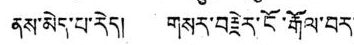ནས་མེད་པ་རེད། གསར་བརྗེར་ངོ་རྒོལ་བར་
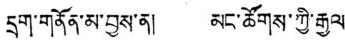དྲག་གནོན་མ་བྱས་ན། མང་ཚོགས་ཀྱི་རྒྱལ་
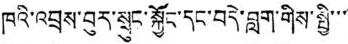ཁའི་འབྲས་བུར་སྲུང་སྐྱོང་དང་བདེ་བླག་གིས་སྤྱི་་་
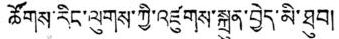ཚོགས་རིངས་ལུགས་ཀྱི་འཛུགས་སྐྲུན་བྱེད་མི་ཐུབ།
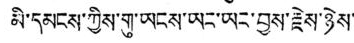མི་དམངས་ཀྱིས་གུ་ཡངས་ཡང་ཡང་བྱས་རྗེས་ཉེས་
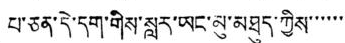པ་ཅན་དེ་དག་གིས་སླར་ཡང་མུ་མཐུད་ཀྱིས་་་་་་་
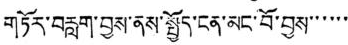གཏོར་བརླག་བྱས་ནས་སྤྱོད་ངན་མང་བོ་བྱས་་་་་་
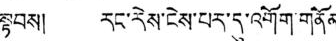སྟབས། རང་རེས་ངེས་པར་དུ་འགོག་གནོན་
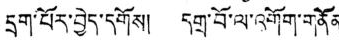དྲག་པོར་བྱེད་དགོས། དགྲ་བོ་ལ་འགོག་གནོན་
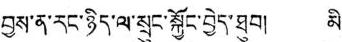བྱས་ན་རང་ཉིད་ལ་སྲུང་སྐྱོང་བྱེད་ཐུབ། མི་
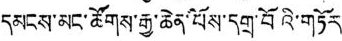དམངས་མང་ཚོགས་རྒྱ་ཆེན་པོས་དགྲ་བོའི་གཏོར་
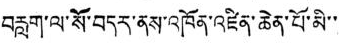བརླག་ལ་སོ་བདར་ནས་འཁོན་འཛིན་ཆེན་པོ་མི་་་
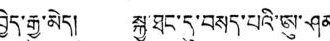བྱེད་རྒྱུ་མེད། སྐྱ་ཐང་དུ་བསད་པའི་ཨུ་ཤན་
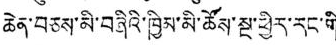ཆེན་བཅས་མི་བཞིའི་ཁྱིམ་མི་ཚོས་སྔ་ཕྱིར་རང་གི་
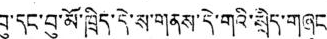བུ་དང་བུ་མོ་ཁྲིད་དེ་ས་གནས་དེ་གའི་སྲིད་གཞུང་་
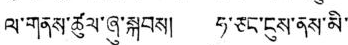ལ་གནས་ཚུལ་ཞུ་སྐབས། ཧ་ཅང་ངུས་ནས་མི་
